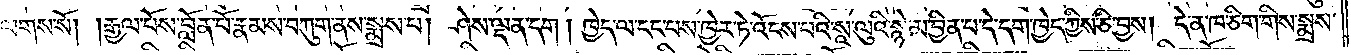ལགས་སོ། །རྒྱལ་པོས་བློན་པོ་རྣམས་བཀུག་ནས་སྨྲས་པ། ཤེས་ལྡན་དག། ཁྱེད་ལ་ངང་པས་ཁྱེར་ཏེ་འོངས་པའི་སཱ་ལུའི་སྙེ་མ་བྱིན་པ་དེ་དག་ཁྱེད་ཀྱིས་ཅི་བྱས། དེ་ན་ཁ་ཅིག་གིས་སྨྲས་
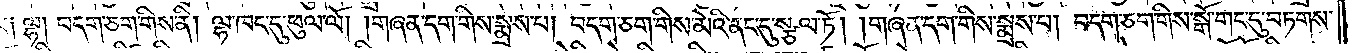པ། ལྷ། བདག་ཅག་གིས་ནི། ལྷ་ཁང་དུ་ཕུལ་ལོ། །གཞན་དག་གིས་སྨྲས་པ། བདག་ཅག་གིས་མེའི་ནང་དུ་སྩལ་ཏོ། །གཞན་དག་གིས་སྨྲས་པ། བདག་ཅག་གིས་སྒོ་གང་དུ་བཏགས་
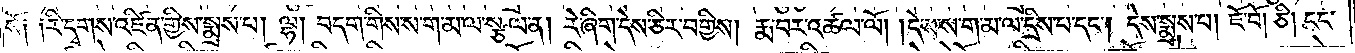སོ༑ ༑རི་དྭགས་འཛིན་གྱིས་སྨྲས་པ། ལྷ། བདག་གིས་ས་ག་མ་ལ་སྩལ་ན། རེ་ཞིག་དེས་ཅིར་བགྱིས། རྨ་བར་འཚལ་ལོ། །དེས་ས་ག་མ་ལ་དྲིས་པ་དང༌། དེས་སྨྲས་པ། ཇོ་བོ། ཅི། ངང་
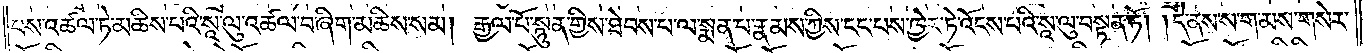པས་འཚལ་ཏེ་མཆིས་པའི་སཱ་ལུ་འཚལ་བ་ཞིག་མཆིས་སམ། རྒྱལ་པོ་སྙུན་གྱིས་ཐེབས་པ་ལ་སྨན་པ་རྣམས་ཀྱིས་ངང་པས་ཁྱེར་ཏེ་འོངས་པའི་སཱ་ལུ་བསྟན་ཏོ། །དེ་ནས་ས་ག་མས་གསེར་
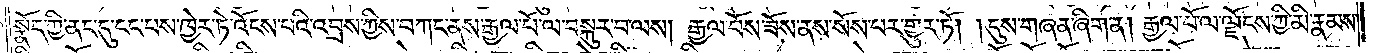སྣོད་ཀྱི་ནང་དུ་ངང་པས་ཁྱེར་ཏེ་འོངས་པའི་འབྲས་ཀྱིས་བཀང་ནས་རྒྱལ་པོ་ལ་བསྐུར་བ་ལས། རྒྱལ་པོས་ཟོས་ནས་སོས་པར་གྱུར་ཏོ། །དུས་གཞན་ཞིག་ན། རྒྱལ་པོ་ལ་ལྗོངས་ཀྱི་མི་རྣམས་
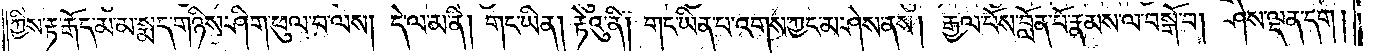ཀྱིས་རྟ་རྒོད་མ་མ་སྨད་གཉིས་ཤིག་ཕུལ་བ་ལས། དེ་ལ་མ་ནི། གང་ཡིན། རྟེའུ་ནི། གང་ཡིན་པ་འགས་ཀྱང་མ་ཤེས་ནས། རྒྱལ་པོས་བློན་པོ་རྣམས་ལ་བསྒོ་བ། ཤེས་ལྡན་དག།
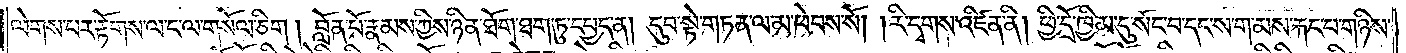ལེགས་པར་རྟོགས་ལ་ང་ལ་གསོལ་ཅིག། བློན་པོ་རྣམས་ཀྱིས་ཉིན་ཐོག་ཐག་ཏུ་དཔྱད་ན། དུབ་སྟེ་གཏན་ལ་མ་ཕེབས་སོ། །རི་དྭགས་འཛིན་ནི། ཕྱི་དྲོ་ཁྱིམ་དུ་སོང་བ་དང་ས་ག་མས་རྐང་པ་གཉིས་
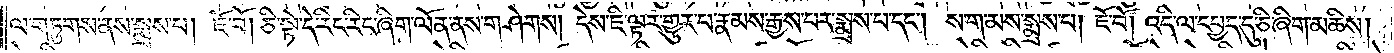ལ་གཏུགས་ནས་སྨྲས་པ། ཇོ་བོ། ཅི་སྟེ་དེ་རིང་རིང་ཞིག་ལོན་ནས་གཤེགས། དེས་ཇི་ལྟར་གྱུར་བ་རྣམས་རྒྱས་པར་སྨྲས་པ་དང༌། ས་ག་མས་སྨྲས་པ། ཇོ་བོ། འདི་ལ་དཔྱད་དུ་ཅི་ཞིག་མཆིས།
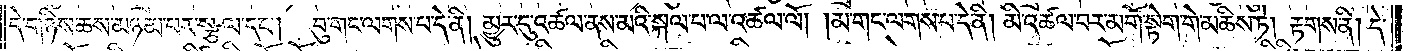དེ་གཉིས་ཆས་མཉམ་པར་སྩལ་དང༌། བུ་གང་ལགས་པ་དེ་ནི། མྱུར་དུ་འཚལ་ནས་མའི་སྐལ་པ་ལ་འཚལ་ལོ། །མ་གང་ལགས་པ་དེ་ནི། མི་འཚལ་པར་མགོ་སྟེག་གེ་མཆིས་ཏེ། རྟགས་ནི། དེ་
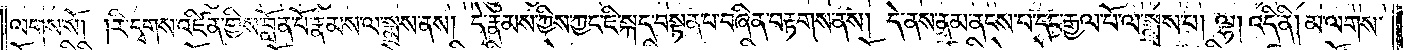ལགས་སོ། །རི་དྭགས་འཛིན་གྱིས་བློན་པོ་རྣམས་ལ་སྨྲས་ནས། དེ་རྣམས་ཀྱིས་ཀྱང་ཇི་སྐད་བསྟན་པ་བཞིན་བརྟགས་ནས། དེ་ནས་ནམ་ནངས་པ་དང་རྒྱལ་པོ་ལ་སྨྲས་པ། ལྷ། འདི་ནི། མ་ལགས་
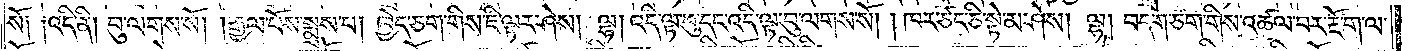སོ༑ ༑འདི་ནི། བུ་ལགས་སོ། །རྒྱལ་པོས་སྨྲས་པ། ཁྱེད་ཅག་གིས་ཇི་ལྟར་ཤེས། ལྷ། འདི་ལྟ་བུ་དང་འདི་ལྟ་བུ་ལགས་སོ། །ཁར་ཙང་ཅི་སྟེ་མ་ཤེས། ལྷ། བདག་ཅག་གིས་འཚལ་བར་རྔོ་ག་ལ་
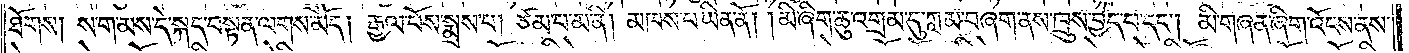ཐོགས། ས་ག་མས་དེ་སྐད་བསྟན་ལགས་མོད། རྒྱལ་པོས་སྨྲས་པ། ཙམ་པ་མ་ནི། མཁས་པ་ཡིན་ནོ། མི་ཞིག་ཆུ་འགྲམ་དུ་ཀླམ་བཞག་ནས་ཁྲུས་བྱེད་པ་དང༌། མི་གཞན་ཞིག་འོངས་ནས་
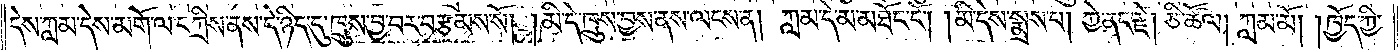དེས་ཀླམ་དེས་མགོ་ལ་དཀྲིས་ནས་དེ་ཉིད་དུ་ཁྲུས་བྱ་བར་བརྩམས་སོ། །མི་དེ་ཁྲུས་བྱས་ནས་ལངས་ན། ཀླམ་དེ་མ་མཐོང་ངོ༌། །མི་དེས་སྨྲས་པ། ཀྱེ་ནང་རྗེ། ཅི་ཚོལ། ཀླམ་མོ། ཁྱོད་ཀྱི་
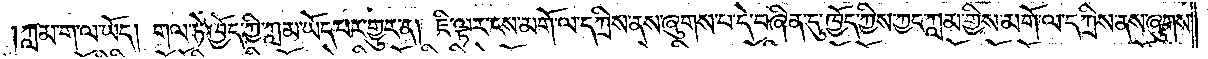།ཀླམ་ག་ལ་ཡོད། གལ་ཏེ་ཁྱོད་ཀྱི་ཀླམ་ཡོད་པར་གྱུར་ན། ཇི་ལྟར་ངས་མགོ་ལ་དཀྲིས་ནས་ཞུགས་པ་དེ་བཞིན་དུ་ཁྱོད་ཀྱིས་ཀྱང་ཀླམ་གྱིས་མགོ་ལ་དཀྲིས་ནས་ཞུགས་
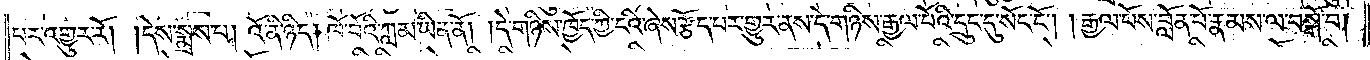པར་འགྱུར་རོ། །དེས་སྨྲས་པ། འོ་ནི་ཉིད། ཁོ་བོའི་ཀླམ་ཡིན་ནོ། །དེ་གཉིས་ཁྱོད་ཀྱི་ངའི་ཞེས་རྩོད་པར་གྱུར་ནས་དེ་གཉིས་རྒྱལ་པོའི་དྲུང་དུ་སོང་ངོ༌། །རྒྱལ་པོས་བློན་པོ་རྣམས་ལ་བསྒོ་བ།
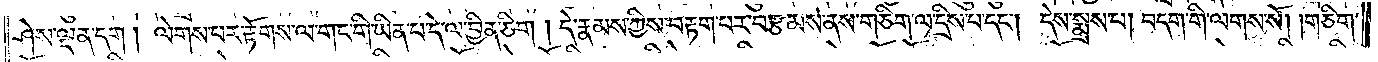ཤེས་ལྡན་དག། ལེགས་པར་རྟོགས་ལ་གང་གི་ཡིན་པ་དེ་ལ་བྱིན་ཅིག། དེ་རྣམས་ཀྱིས་བརྟག་པར་བརྩམས་ནས་གཅིག་ལ་དྲིས་པ་དང༌། དེས་སྨྲས་པ། བདག་གི་ལགས་སོ། །གཅིག་
